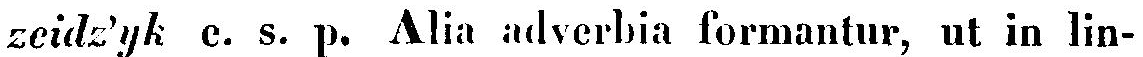zeidz'yk e. s. p. Alia adverbia formantur, ut in lin-
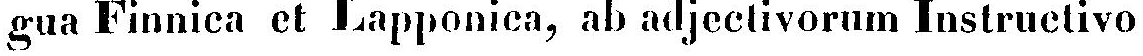gua Finnica et Lapponica, ab adjectivorum Instructivo
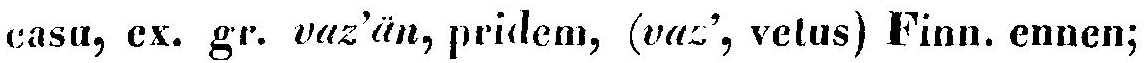casu, ex. gr. vaz'än, pridem, (vaz', vetus) Finn. ennen;
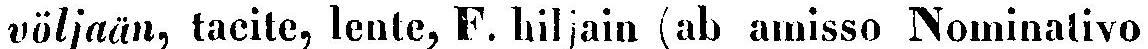völjaän, tacite, lente, F. hiljain (ab amisso Nominativo
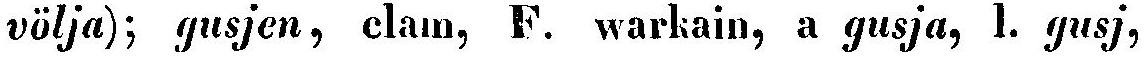völja); gusjen, clam, F. warkain, a gusja, l. gusj,
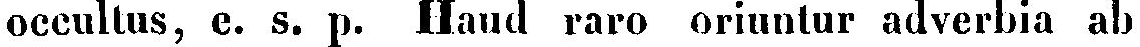occultus, e. s. p. Haud raro oriuntur adverbia ab
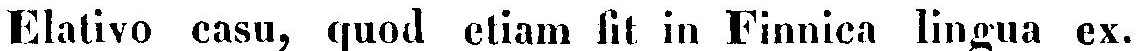Elativo casu, quod etiam fit in Finnica lingua ex.
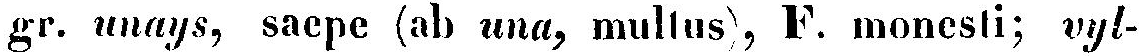gr. unays, saepe (ab una, mullus), F. monesti; vyl-
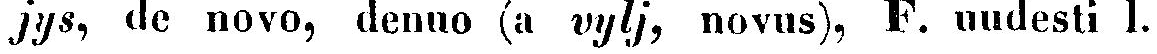jys, de novo, denuo (a vylj, novus), F. uudesti l.
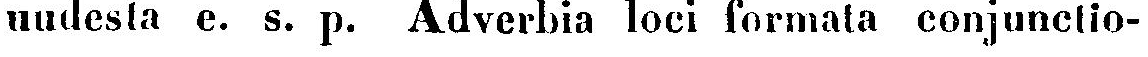uudesta e. s. p. Adverbia loci formata conjunctio-
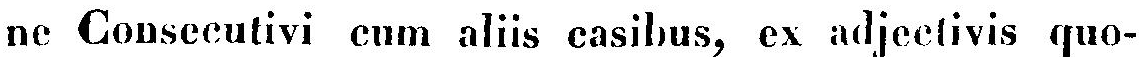ne Consecutivi cum aliis casibus, ex adjectivis quo-
